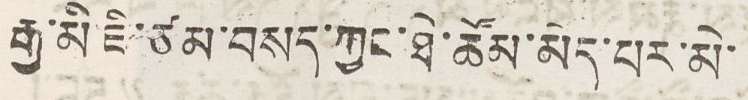རྒྱ་མི་ཇི་ཙམ་བསད་ཀྱང་ཐེ་ཚེམ་མེད་པར་མེ་
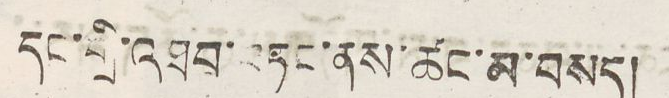དང་གྲི་འཐབ་བཏང་ནས་ཚང་མ་བསད།
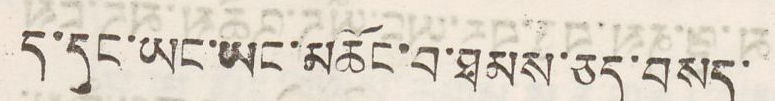ད་དུང་ཡང་ཡང་མཆོང་བ་ཐམས་ཅད་བསད་
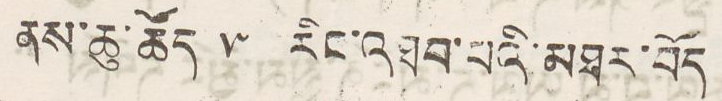ནས་ཆུ་ཚོད་ ༥ རིང་འཐབ་པའི་མཐར་བོད
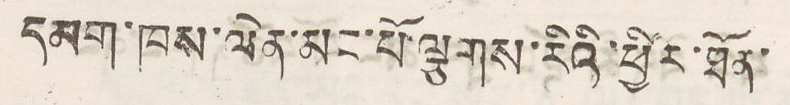དམག་ཁས་ལེན་མང་པོ་ལྕགས་རིའི་ཕྱིར་ཐོན་
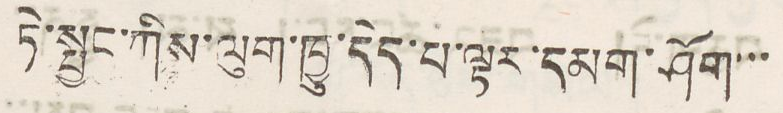ཏེ་སྤྱང་ཀིས་ལུག་ཁྱུ་དེད་པ་ལྟར་དམག་ཤོག་་
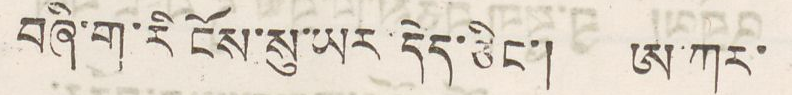བཞི་ག་རི ངོས་སུ་ཡར་དེད་ཅིང་། ཨ་ཀར་
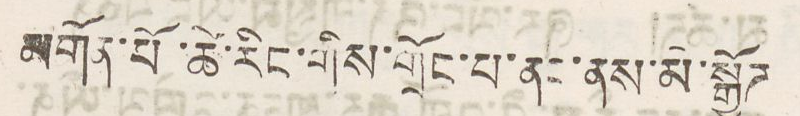མགོན་པོ་ཚེ་རིང་གིས་གྲོང་པ་ནང་ནས་མ་སྒྱོཌ
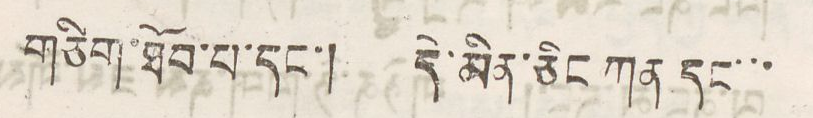གཅིག་ཐོབ་པ་དང་། དེ་མིན་ཅིང ཀན་དང་་་
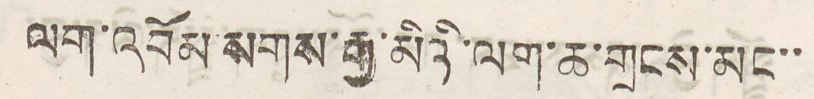ལག་འབོམ་སགས་རྒྱ་མིའི་ལག་ཆ་གྲངས་མང་་
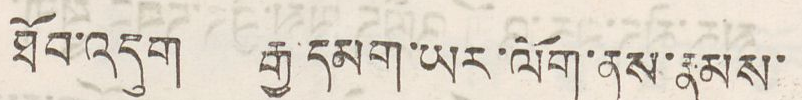ཐོབ་འདུག རྒྱ་དམག་ཡར་ལོག་ནས་རྣམས་
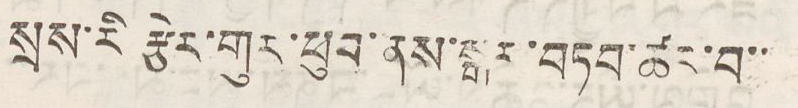སྲས་རི རྩེར་གུར་ཕུབ་ནས་སྒར་བཏབ་ཚར་བ་་
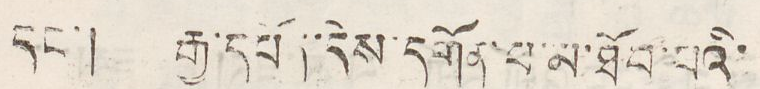དང་། རྒྱ་དཔོན་དེས་དགོན་པ་མ་ཐོབ་པའི་
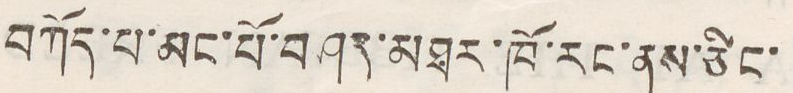བཀོད་པ་མང་པོ་བཤད་མཐར་ཁོ་རང་ནས་ཙིང་
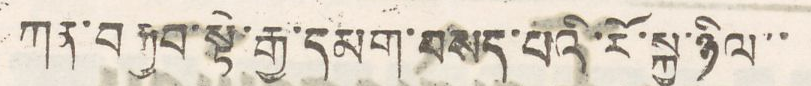ཀན་བརྒྱབ་སྟེ་རྒྱ་དམག་བསད་པའི་རོ་སྐྱ་ཉིལ་་
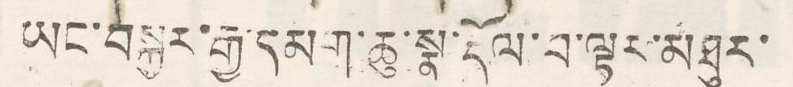ཡང་བསྐྱར་རྒྱ་དམག་ཆུ་སྣ་རྡོལ་བ་ལྟར་མཐུར་
